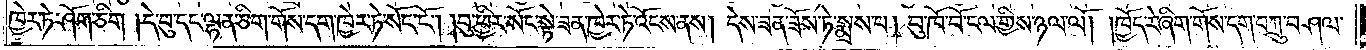ཁྱེར་ཏེ་ཤོག་ཅིག །དེ་བུ་དང་ལྷན་ཅིག་གོས་དག་ཁྱེར་ཏེ་སོང་ངོ༌། །བུ་ཕྱིར་སོང་སྟེ་ཟན་ཁྱེར་ཏེ་འོངས་ནས། དེས་ཟན་ཟོས་ཏེ་སྨྲས་པ། བུ་ཁོ་བོ་ངལ་གྱིས་ཉལ་ལོ། །ཁྱོད་རེ་ཞིག་གོས་དག་བཀྲུ་བཤལ་
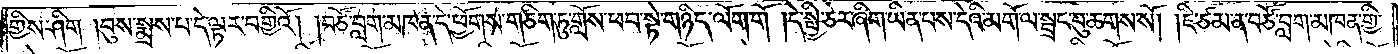གྱིས་ཤིག །བུས་སྨྲས་པ་དེ་ལྟར་བགྱིའོ། །བཙོ་བླག་མཁན་དེ་ཕྱོགས་གཅིག་ཏུ་གློས་ཕབ་སྟེ་གཉིད་ལོག་གོ །དེ་སྤྱི་ཅེར་ཞིག་ཡིན་པས་དེའི་མགོ་ལ་སྦྲང་བུ་ཆགས་སོ། །ཇི་ཙམ་ན་བཙོ་བླག་མཁན་གྱི་
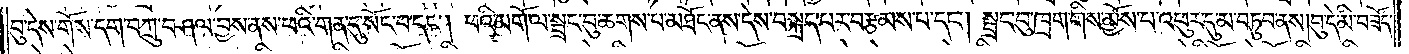བུ་དེས་གོས་དག་བཀྲུ་བཤལ་བྱས་ནས་ཕའི་གན་དུ་སོང་བ་དང༌། ཕའི་མགོ་ལ་སྦྲང་བུ་ཆགས་པ་མཐོང་ནས་དེས་བསྐྲད་པར་བརྩམས་པ་དང༌། སྦྲང་བུ་ཁྲག་གིས་མྱོས་པ་འཕུར་དུ་མ་བཏུབ་ནས། བུ་དེ་མི་བཟོད་
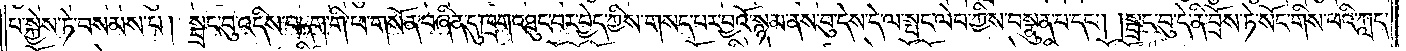པ་སྐྱེས་ཏེ་བསམས་པ། སྦྲང་བུ་འདིས་བདག་གི་ཕ་གསོན་བཞིན་དུ་ཁྲག་འཐུང་བར་བྱེད་ཀྱིས་གསད་པར་བྱའོ་སྙམ་ནས་བུ་དེས་དེ་ལ་སྤང་ལེབ་ཀྱིས་བསྣུན་པ་དང༌། །སྦྲང་བུ་དེ་ནི་བྲོས་ཏེ་སོང་གིས་ཕའི་ཀླད་
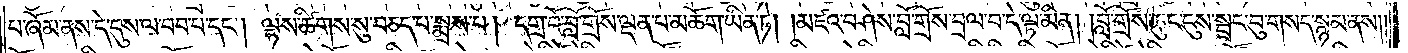པ་ཞོམ་ནས་དེ་དུས་ལ་བབ་པ་དང༌། ལྷས་ཚིགས་སུ་བཅད་པ་སྨྲས་པ། དགྲ་བོ་བློ་གྲོས་ལྡན་པ་མཆོག་ཡིན་ཏེ། །མཛའ་བཤེས་བློ་གྲོས་བྲལ་བ་དེ་ལྟ་མིན། །བློ་གྲོས་ཆུང་ངུས་སྦྲང་བུ་གསད་སྙམ་ནས༎
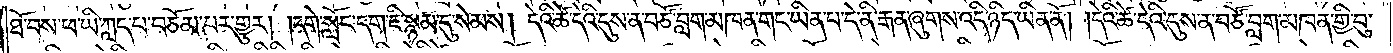ཐོ་བས་ཕ་ཡི་ཀླད་པ་བཅོམ་པར་གྱུར། །དགེ་སློང་དག་ཇི་སྙམ་དུ་སེམས། དེའི་ཚེ་དེའི་དུས་ན་བཙོ་བླག་མཁན་གང་ཡིན་པ་དེ་ནི་རྒན་ཞུགས་འདི་ཉིད་ཡིན་ནོ། །དེའི་ཚེ་དེའི་དུས་ན་བཙོ་བླག་མཁན་གྱི་བུ་
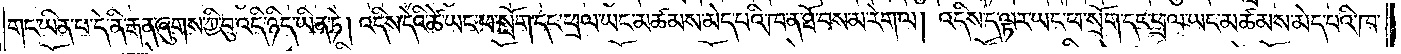གང་ཡིན་པ་དེ་ནི་རྒན་ཞུགས་ཀྱི་བུ་འདི་ཉིད་ཡིན་ཏེ། འདིས་དེའི་ཚེ་ཡང་ཕ་སྲོག་དང་ཕྲལ་ཡང་མཚམས་མེད་པའི་ཁ་ན་ཐོ་བས་མ་རེག་ལ། འདིས་ད་ལྟར་ཡང་ཕ་སྲོག་དང་ཕྲལ་ཡང་མཚམས་མེད་པའི་ཁ་
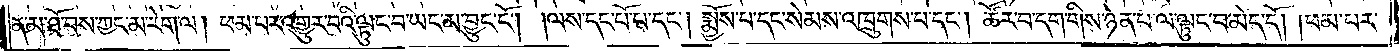ན་མ་ཐོ་བས་ཀྱང་མ་རེག་ལ། ཕམ་པར་འགྱུར་བའི་ལྟུང་བ་ཡང་མ་བྱུང་ངོ༌། །ལས་དང་པོ་པ་དང༌། སྨྱོས་པ་དང་སེམས་འཁྲུགས་པ་དང༌། ཚོར་བ་དག་གིས་ཉེན་པ་ལ་ལྟུང་བ་མེད་དོ། །ཕམ་པར་
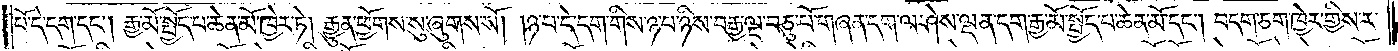པོ་དེ་དག་དང༌། རྒྱ་མོ་སྤྱོད་པ་ཆེན་མོ་ཁྱེར་ཏེ། རྒྱུན་ཕྱོགས་སུ་ཞུགས་སོ། །ཉ་པ་དེ་དག་གིས་ཉ་པ་ཉིས་བརྒྱ་ལྔ་བཅུ་པོ་གཞན་དག་ལ་ཤེས་ལྡན་དག་རྒྱ་མོ་སྤྱོད་པ་ཆེན་མོ་དང༌། བདག་ཅག་ཁྱེར་གྱིས་ར་
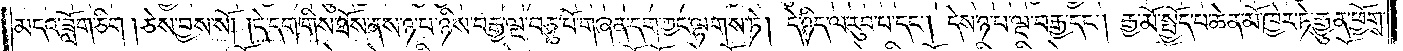མདའ་ཟློག་ཅིག །ཅེས་བྱས་སོ། །དེ་དག་གིས་ཐོས་ནས་ཉ་པ་ཉིས་བརྒྱ་ལྔ་བཅུ་པོ་གཞན་དག་ཀྱང་ལྷགས་ཏེ། དེ་ཉིད་ལ་རུབ་པ་དང༌། དེས་ཉ་པ་ལྔ་བརྒྱ་དང༌། རྒྱ་མོ་སྤྱོད་པ་ཆེན་མོ་ཁྱེར་ཏེ་རྒྱུན་ཕྱོགས་
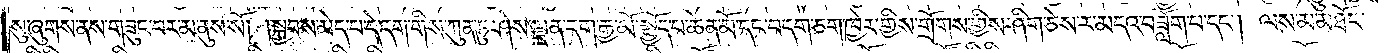སུ་ཞུགས་ནས་གཟུང་བར་མ་ནུས་སོ། །སྐྱབས་མེད་པ་དེ་དག་གིས་ཀུན་ཏུ་ཤེས་ལྡན་དག་རྒྱ་མོ་སྤྱོད་པ་ཆེན་མོ་དང་བདག་ཅག་ཁྱེར་གྱིས་གྲོགས་གྱིས་ཤིག་ཅེས་ར་མདའ་བཟློག་པ་དང༌། ལས་མ་མཐོང་
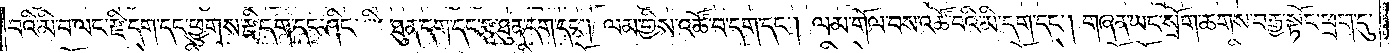བའི་མི་བ་ལང་རྫི་དག་དང་ཕྱུགས་རྫི་དག་དང་ཤིང་ ི་ཐུན་དག་དང་རྩྭ་ཐུན་དག་དང༌། ལམ་གྱིས་འཚོ་བ་དག་དང༌། ལམ་གོལ་བས་འཚོ་བའི་མི་དག་དང༌། གཞན་ཡང་སྲོག་ཆགས་བརྒྱ་སྟོང་ཕྲག་དུ་
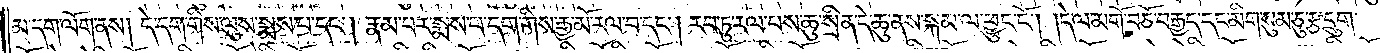མ་དག་ལོག་ནས། དེ་དག་གིས་ལུས་སྨས་པ་དང༌། རྣམ་པར་སྨས་པ་དག་གིས་རྒྱ་མོ་རལ་བ་དང༌། རབ་ཏུ་རལ་པས་ཆུ་སྲིན་དེ་ཆུ་ནས་སྐམ་ལ་ཕྱུང་ངོ༌། །དེ་ལ་མགོ་བཅོ་བརྒྱད་དང་མིག་སུམ་ཅུ་རྩ་དྲུག་
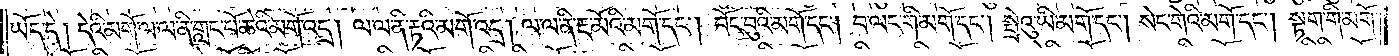ཡོད་དེ། དེའི་མགོ་ལ་ལ་ནི་གླང་པོ་ཆེའི་མགོ་འདྲ། ལ་ལ་ནི་རྟའི་མགོ་འདྲ། ལ་ལ་ནི་རྔ་མོའི་མགོ་དང༌། བོང་བུའི་མགོ་དང༌། བ་ལང་གི་མགོ་དང༌། སྤྲེའུ་ཡི་མགོ་དང༌། སེང་གེའི་མགོ་དང༌། སྟག་གི་མགོ་
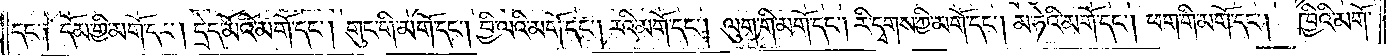དང་༑ དོམ་གྱི་མགོ་དང༌། དྲེད་མོའི་མགོ་དང༌། གུང་གི་མགོ་དང༌། བྱི་ལའི་མགོ་དང༌། རའི་མགོ་དང༌། ལུག་གི་མགོ་དང༌། རི་དྭགས་ཀྱི་མགོ་དང༌། མ་ཧེའི་མགོ་དང༌། ཕག་གི་མགོ་དང༌།  ཁྱིའི་མགོ་
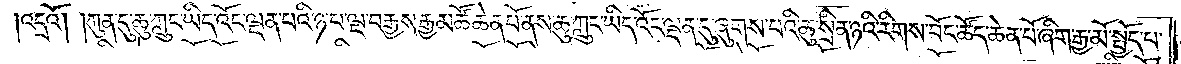འདྲའོ། །ཀུན་དུ་ཆུ་ཀླུང་ཡིད་འོང་ལྡན་པའི་ཉ་པ་ལྔ་བརྒྱས་རྒྱ་མཚོ་ཆེན་པོ་ནས་ཆུ་ཀླུང་ཡིད་འོང་ལྡན་དུ་ཞུགས་པའི་ཆུ་སྲིན་ཉའི་རིགས་བོང་ཚོད་ཆེན་པོ་ཞིག་རྒྱ་མོ་སྤྱོད་པ་
